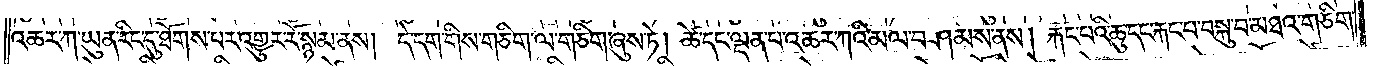འཆར་ཀ་ཡུན་རིང་དུ་ཐོགས་པར་འགྱུར་རོ་སྙམ་ནས། དེ་དག་གིས་གཅིག་ལ་གཅིག་ཞུས་ཏེ། ཚེ་དང་ལྡན་པ་འཆར་ཀའི་མལ་བཤམས་ནས། རྐང་པའི་ཆུ་དང་རྐང་པ་བསྐུ་བ་མཐའ་གཅིག་
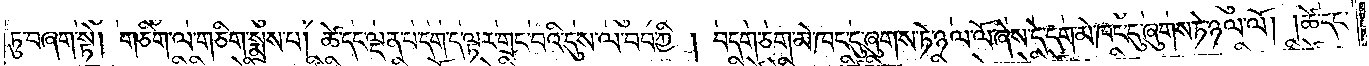ཏུ་བཞག་སྟེ། གཅིག་ལ་གཅིག་སྨྲས་པ། ཚེ་དང་ལྡན་པ་དག་ད་ལྟར་གྲང་བའི་དུས་ལ་བབ་ཀྱི། བདག་ཅག་མེ་ཁང་དུ་ཞུགས་ཏེ་ཉལ་ལོ་ཞེས་དེ་དག་མེ་ཁང་དུ་ཞུགས་ཏེ་ཉལ་ལོ། །ཚེ་དང་
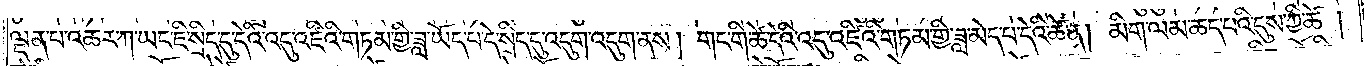ལྡན་པ་འཆར་ཀ་ཡང་ཇི་སྲིད་དུ་དེའི་འདུ་འཛིའི་གཏམ་གྱི་ཟླ་ཡོད་པ་དེ་སྲིད་དུ་འདུག་འདུག་ནས། གང་གི་ཚེ་དེའི་འདུ་འཛིའི་གཏམ་གྱི་ཟླ་མེད་པ་དེའི་ཚེ་ན། མིག་ལམ་ཆད་པའི་དུས་ཀྱི་ཚེ་།
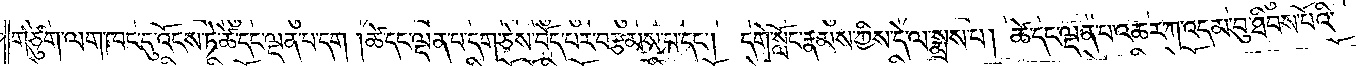གཙུག་ལག་ཁང་དུ་འོངས་ཏེ་ཚེ་དང་ལྡན་པ་དག །ཚེ་དང་ལྡན་པ་དག་ཅེས་བོད་པར་བརྩམས་པ་དང༌། དགེ་སློང་རྣམས་ཀྱིས་དེ་ལ་སྨྲས་པ། ཚེ་དང་ལྡན་པ་འཆར་ཀ་འདམ་བུ་ཐིབས་པོའི་
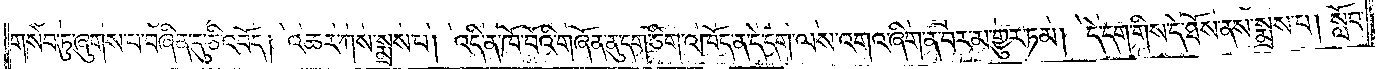གསེབ་ཏུ་ཞུགས་པ་བཞིན་དུ་ཅི་འབོད། འཆར་ཀས་སྨྲས་པ། འདི་ན་ཁོ་བོའི་གཞོན་ནུ་དག་ཅིག་འཁོད་ན་དེ་དག་ལས་འགའ་ཞིག་ན་བར་མ་གྱུར་ཏམ། དེ་དག་གིས་དེ་ཐོས་ནས་སྨྲས་པ། སློབ་
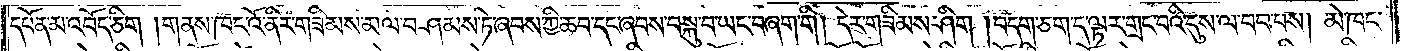དཔོན་མ་འབོད་ཅིག །གནས་ཁང་འོ་ནིར་གཟིམས་མལ་བཤམས་ཏེ་ཞབས་ཀྱི་ཆབ་དང་ཞབས་བསྐུ་བ་ཡང་བཞག་གི། དེར་གཟིམས་ཤིག །བདག་ཅག་ད་ལྟར་གྲང་བའི་དུས་ལ་བབ་པས། མེ་ཁང་
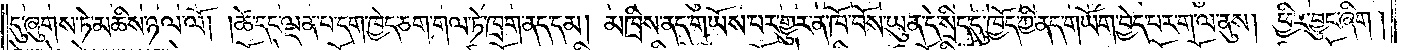དུ་ཞུགས་ཏེ་མཆིས་ཉལ་ལོ། །ཚེ་དང་ལྡན་པ་དག་ཁྱེད་ཅག་གལ་ཏེ་ཁྲག་ནད་དམ། མཁྲིས་ནད་གཡོས་པར་གྱུར་ན་ཁོ་བོས་ཡུན་དེ་སྲིད་དུ་ཁྱོད་ཀྱི་ནད་གཡོག་བྱེད་པར་ག་ལ་ནུས། ཕྱིར་བྱུང་ཞིག །
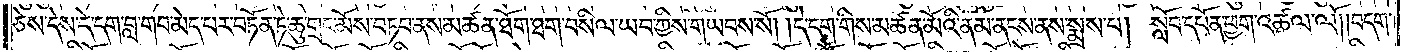ཅེས་དེས་དེ་དག་བླ་གབ་མེད་པར་བཏོན་ཏེ་ཆུ་གྲང་མོས་བཏབ་ནས་མཚན་ཐོག་ཐག་བསིལ་ཡབ་ཀྱིས་གཡབས་སོ། །དེ་དག་གིས་མཚན་མོའི་ནམ་ནངས་ནས་སྨྲས་པ། སློབ་དཔོན་ཕྱག་འཚལ་ལོ། །བདག་
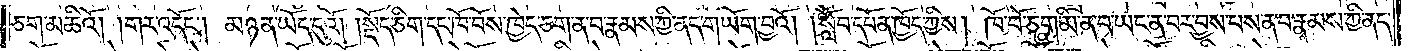ཅག་མཆིའོ། །གར་འདོང༌། མཉན་ཡོད་དུའོ། །སྡོད་ཅིག་དང་ཁོ་བོས་ཁྱེད་ཅག་ན་བ་རྣམས་ཀྱི་ནད་གཡོག་བྱའོ། །སློབ་དཔོན་ཁྱོད་ཀྱིས། ཁོ་བོ་ཅག་མི་ན་བ་ཡང་ན་བར་བྱས་པས་ན་བ་རྣམས་ཀྱི་ནད་
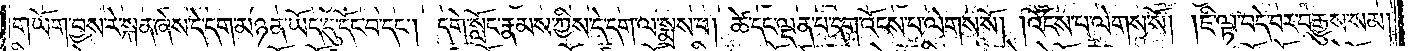གཡོག་བྱས་རེ་སྐན་ཞེས་དེ་དག་མཉན་ཡོད་དུ་དོང་བ་དང༌། དགེ་སློང་རྣམས་ཀྱིས་དེ་དག་ལ་སྨྲས་པ། ཚེ་དང་ལྡན་པ་དག་འོངས་པ་ལེགས་སོ། །འོངས་པ་ལེགས་སོ། །ཇི་ལྟ་བདེ་བར་བརྒྱུས་སམ།
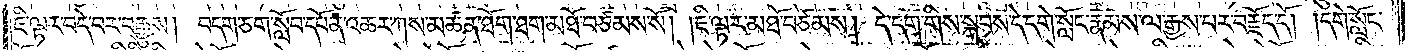ཇི་ལྟར་བདེ་བར་བརྒྱུས། བདག་ཅག་སློབ་དཔོན་འཆར་ཀས་མཚན་ཐོག་ཐག་མཐོ་བཙམས་སོ། །ཇི་ལྟར་མཐོ་བཙམས། དེ་དག་གིས་སྐབས་དེ་དགེ་སློང་རྣམས་ལ་རྒྱས་པར་བརྗོད་དོ། །དགེ་སློང་
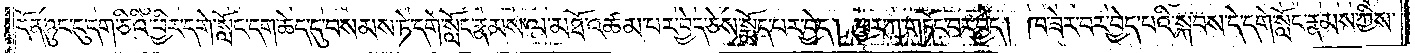དོན་ཉུང་ངུ་དག་ཅིའི་ཕྱིར་དགེ་སློང་དག་ཆེད་དུ་བསམས་ཏེ་དགེ་སློང་རྣམས་ལ་མཐོ་འཚམ་པར་བྱེད་ཅེས་སྨོད་པར་བྱེད། ཕྱར་ཀ་གཏོང་བར་བྱེད། ཁ་ཟེར་བར་བྱེད་པའི་སྐབས་དེ་དགེ་སློང་རྣམས་ཀྱིས་
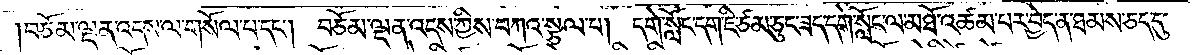བཅོམ་ལྡན་འདས་ལ་གསོལ་པ་དང༌། བཅོམ་ལྡན་འདས་ཀྱིས་བཀའ་སྩལ་པ། དགེ་སློང་དག་ཇི་ཙམ་ཅུང་ཟད་དགེ་སློང་ལ་མཐོ་འཚམ་པར་བྱེད་ན་ཐམས་ཅད་དུ་
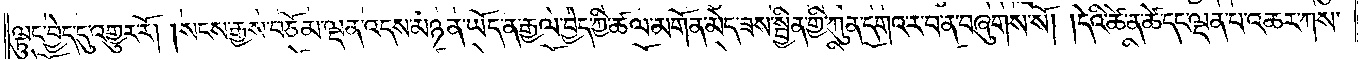ལྟུང་བྱེད་དུ་འགྱུར་རོ། །སངས་རྒྱས་བཅོམ་ལྡན་འདས་མཉན་ཡོད་ན་རྒྱལ་བྱེད་ཀྱི་ཚལ་མགོན་མེད་ཟས་སྦྱིན་གྱི་ཀུན་དགའ་ར་བ་ན་བཞུགས་སོ། །དེའི་ཚེ་ན་ཚེ་དང་ལྡན་པ་འཆར་ཀས་
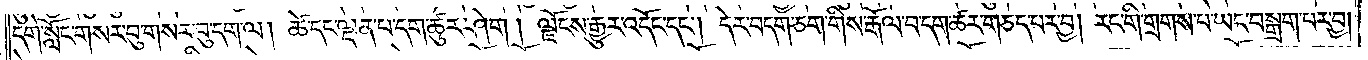དགེ་སློང་གསར་བུ་གསར་བུ་དག་ལ། ཚེ་དང་ལྡན་པ་དག་ཚུར་ཤེག །ལྗོངས་རྒྱུར་འདོང་དང༌། དེར་བདག་ཅག་གིས་རྒོལ་བ་དག་ཚར་གཅད་པར་བྱ། རང་གི་གྲགས་པ་ཡང་བསྒྲག་པར་བྱ།
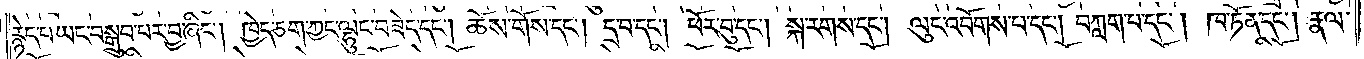རྙེད་པ་ཡང་བསྒྲུབ་པར་བྱ་ཞིང༌། ཁྱེད་ཅག་ཀྱང་ལྷུང་བཟེད་དང༌། ཆོས་གོས་དང༌། དྲ་བ་དང༌། ཕོར་བུ་དང༌། སྐ་རགས་དང༌། ལུང་འབོགས་པ་དང༌། བཀླག་པ་དང༌། ཁ་ཏོན་དང༌། རྣལ་
